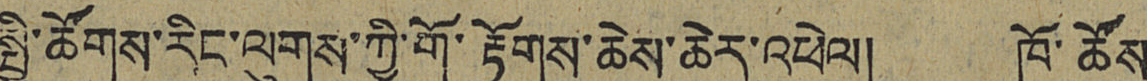སྤྱི་ཚོགས་རིང་ལུགས་ཀྱི་གོ་རྟོགས་ཆེས་ཆེར་འཕེལ། ཁོ་ཚོས་
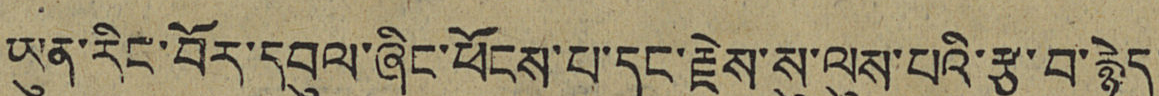ཡུན་རིང་བོར་དབུལ་ཞིང་ཕོངས་པ་དང་རྗེས་སུ་ལུས་པའི་རྩ་བ་རྙེད་
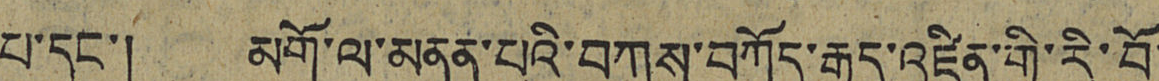པ་དང་། མགོ་ལ་མནན་པའི་བཀས་བཀོད་རྒྱུད་འཛིན་གྱི་རི་བོ་
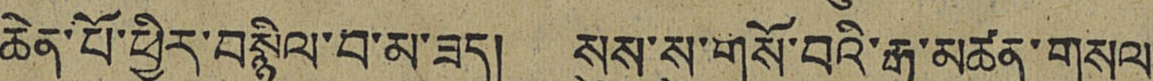ཆེན་པོ་ཕྱིར་བསྙིལ་བ་མ་ཟད། སུས་སུ་གསོ་བའི་རྒྱུ་མཚན་གསལ་
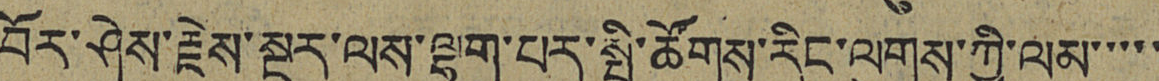བོར་ཤེས་རྗེས་སྔར་ལས་ལྷག་པར་སྤྱི་ཚོགས་རིང་ལུགས་ཀྱི་ལམ་་་་་
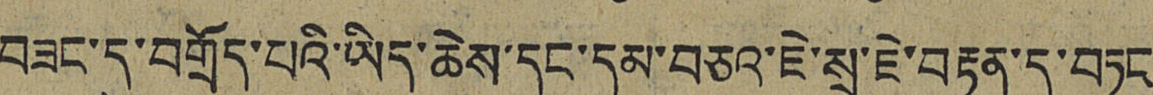བཟང་དུ་བགྲོད་པའི་ཡིད་ཆེས་དང་དམ་བཅའ་ཇེ་སྲ་ཇེ་བརྟན་དུ་བཏང་
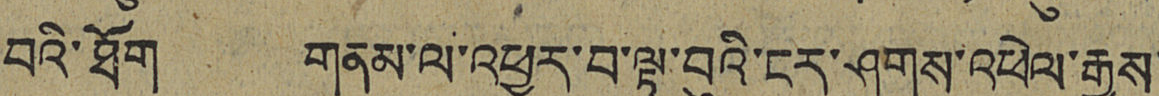བའི་ཐོག གནམ་ལ་འཕྱུར་བ་ལྟ་བུའི་ངར་ཤུགས་འཕེལ་རྒྱས་
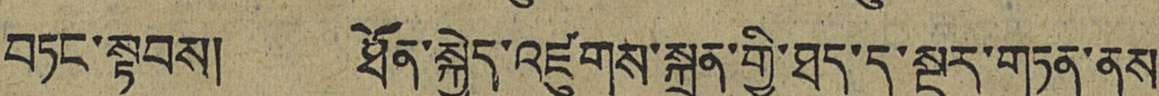བཏང་སྟབས། ཐོན་སྐྱེད་འཛུགས་སྐྲུན་གྱི་ཐད་དུ་སྔར་གཏན་ནས་
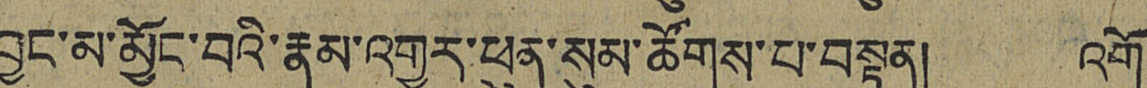བྱུང་མ་མྱོང་བའི་རྣམ་འགྱུར་ཕུན་སུམ་ཚོགས་པ་བསྟན། འགོ་
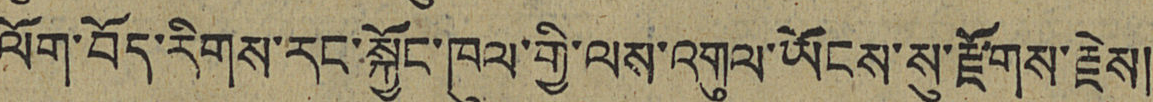ལོག་བོད་རིགས་རང་སྐྱོང་ཁུལ་གྱི་ལས་འགུལ་ཡོངས་སུ་རྫོགས་རྗེས།
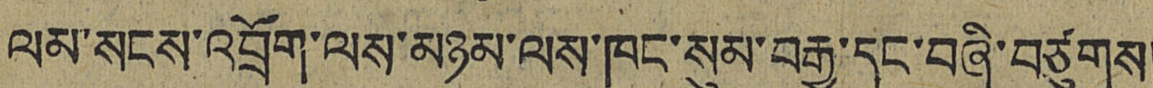ལམ་སངས་འབྲོག་ལས་མཉམ་ལས་ཁང་སུམ་བརྒྱ་དང་བཞི་བཙུགས།
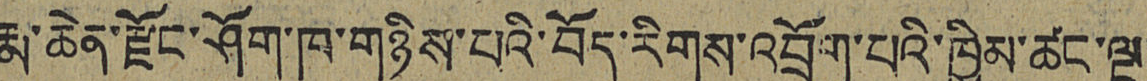རྨ་ཆེན་རྫོང་ཤོག་ཁ་གཉིས་པའི་བོད་རིགས་འབྲོག་པའི་ཁྱིམ་ཚང་ལྔ་
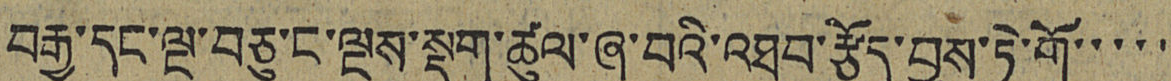བརྒྱ་དང་ལྔ་བཅུ་ང་ལྔས་སྡུག་ཚུལ་ཞུ་བའི་འཐབ་རྩོད་བྱས་ཏེ་གོ་་་་་
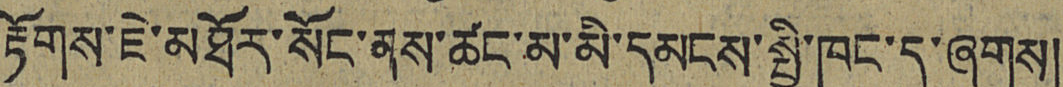རྟོགས་ཇེ་མཐོར་སོང་ནས་ཚང་མ་མི་དམངས་སྤྱི་ཁང་དུ་ཞུགས།
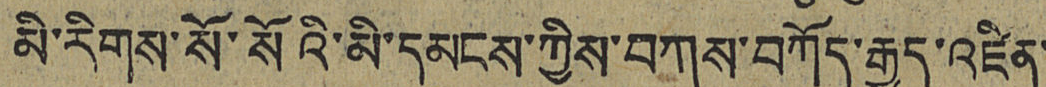མི་རིགས་སོ་སོའི་མི་དམངས་ཀྱིས་བཀས་བཀོད་རྒྱུད་འཛིན་
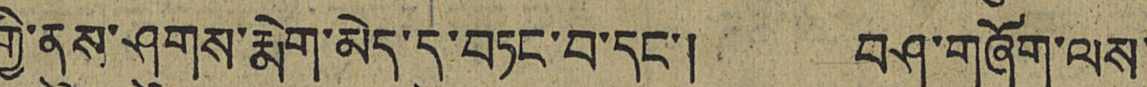གྱི་ནུས་ཤུགས་རྨེག་མེད་དུ་བཏང་བ་དང་། བཤུ་གཞོག་ལས་
